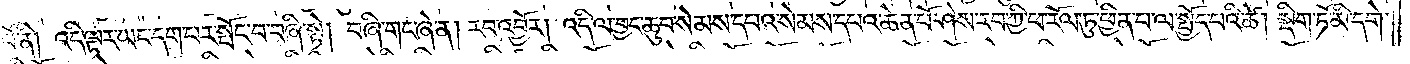པོ་ནི། འདི་ལྟར་ཡང་དག་པར་སྤོང་བ་བཞི་སྟེ། བཞི་གང་ཞེ་ན། རབ་འབྱོར། འདི་ལ་བྱང་ཆུབ་སེམས་དཔའ་སེམས་དཔའ་ཆེན་པོ་ཤེས་རབ་ཀྱི་ཕ་རོལ་ཏུ་ཕྱིན་པ་ལ་སྤྱོད་པའི་ཚེ། སྡིག་ཏོ་མི་དགེ་
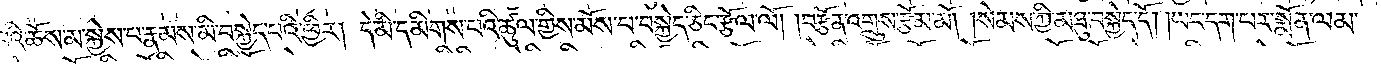བའི་ཆོས་མ་སྐྱེས་པ་རྣམས་མི་བསྐྱེད་པའི་ཕྱིར། དེ་མི་དམིགས་པའི་ཚུལ་གྱིས་མོས་པ་བསྐྱེད་ཅིང་རྩོལ་ལོ། །བརྩོན་འགྲུས་རྩོམ་མོ། །སེམས་ཀྱི་མཐུ་བསྐྱེད་དོ། །ཡང་དག་པར་སྨོན་ལམ་
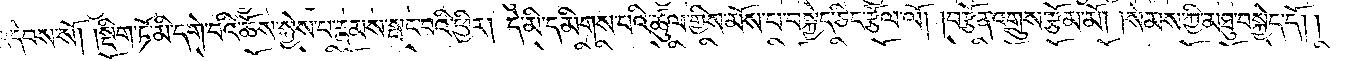འདེབས་སོ། །སྡིག་ཏོ་མི་དགེ་བའི་ཆོས་སྐྱེས་པ་རྣམས་སྤང་བའི་ཕྱིར། དེ་མི་དམིགས་པའི་ཚུལ་གྱིས་མོས་པ་བསྐྱེད་ཅིང་རྩོལ་ལོ། །བརྩོན་འགྲུས་རྩོམ་མོ། །སེམས་ཀྱི་མཐུ་བསྐྱེད་དོ། །
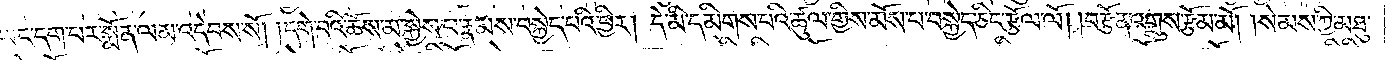ཡང་དག་པར་སྨོན་ལམ་འདེབས་སོ། །དགེ་བའི་ཆོས་མ་སྐྱེས་པ་རྣམས་བསྐྱེད་པའི་ཕྱིར། དེ་མི་དམིགས་པའི་ཚུལ་གྱིས་མོས་པ་བསྐྱེད་ཅིང་རྩོལ་ལོ། །བརྩོན་འགྲུས་རྩོམ་མོ། །སེམས་ཀྱི་མཐུ་
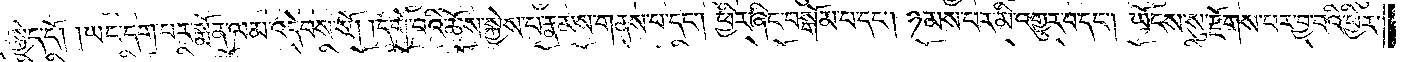བསྐྱེད་དོ། །ཡང་དག་པར་སྨོན་ལམ་འདེབས་སོ། །དགེ་བའི་ཆོས་སྐྱེས་པ་རྣམས་གནས་པ་དང༌། ཕྱིར་ཞིང་བསྒོམ་པ་དང༌། ཉམས་པར་མི་འགྱུར་བ་དང༌། ཡོངས་སུ་རྫོགས་པར་བྱ་བའི་ཕྱིར།
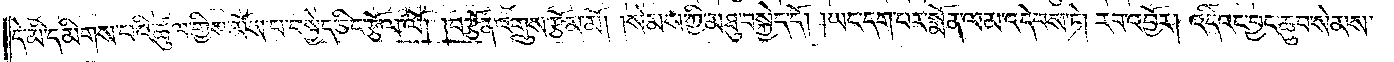དེ་མི་དམིགས་པའི་ཚུལ་གྱིས་མོས་པ་བསྐྱེད་ཅིང་རྩོལ་ལོ། །བརྩོན་འགྲུས་རྩོམ་མོ། །སེམས་ཀྱི་མཐུ་བསྐྱེད་དོ། །ཡང་དག་པར་སྨོན་ལམ་འདེབས་ཏེ། རབ་འབྱོར། འདིའང་བྱང་ཆུབ་སེམས་
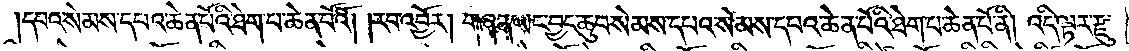དཔའ་སེམས་དཔའ་ཆེན་པོའི་ཐེག་པ་ཆེན་པོའོ། །རབ་འབྱོར། གཞན་ཡང་བྱང་ཆུབ་སེམས་དཔའ་སེམས་དཔའ་ཆེན་པོའི་ཐེག་པ་ཆེན་པོ་ནི། འདི་ལྟར་རྫུ་
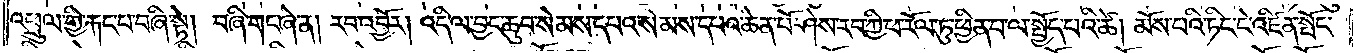འཕྲུལ་གྱི་རྐང་པ་བཞི་སྟེ། བཞི་གང་ཞེ་ན། རབ་འབྱོར། འདི་ལ་བྱང་ཆུབ་སེམས་དཔའ་སེམས་དཔའ་ཆེན་པོ་ཤེས་རབ་ཀྱི་ཕ་རོལ་ཏུ་ཕྱིན་པ་ལ་སྤྱོད་པའི་ཚེ། མོས་པའི་ཏིང་ངེ་འཛིན་སྤོང་
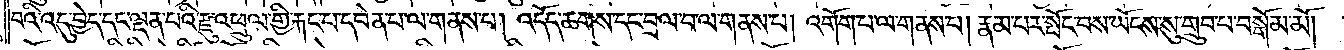བའི་འདུ་བྱེད་དང་ལྡན་པའི་རྫུ་འཕྲུལ་གྱི་རྐང་པ་དབེན་པ་ལ་གནས་པ། འདོད་ཆགས་དང་བྲལ་བ་ལ་གནས་པ། འགོག་པ་ལ་གནས་པ། རྣམ་པར་སྤོང་བས་ཡོངས་སུ་གྲུབ་པ་བསྒོམ་མོ། །
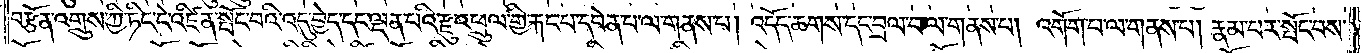བརྩོན་འགྲུས་ཀྱི་ཏིང་ངེ་འཛིན་སྤོང་བའི་འདུ་བྱེད་དང་ལྡན་པའི་རྫུ་འཕྲུལ་གྱི་རྐང་པ་དབེན་པ་ལ་གནས་པ། འདོད་ཆགས་དང་བྲལ་བ་ལ་གནས་པ། འགོག་པ་ལ་གནས་པ། རྣམ་པར་སྤོང་བས་
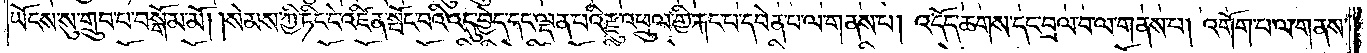ཡོངས་སུ་གྲུབ་པ་བསྒོམ་མོ། །སེམས་ཀྱི་ཏིང་ངེ་འཛིན་སྤོང་བའི་འདུ་བྱེད་དང་ལྡན་པའི་རྫུ་འཕྲུལ་གྱི་རྐང་པ་དབེན་པ་ལ་གནས་པ། འདོད་ཆགས་དང་བྲལ་བ་ལ་གནས་པ། འགོག་པ་ལ་གནས་
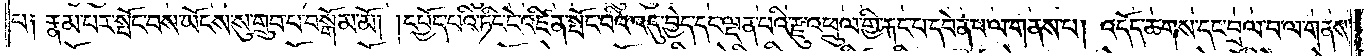པ༑ རྣམ་པར་སྤོང་བས་ཡོངས་སུ་གྲུབ་པ་བསྒོམ་མོ། །དཔྱོད་པའི་ཏིང་ངེ་འཛིན་སྤོང་བའི་འདུ་བྱེད་དང་ལྡན་པའི་རྫུ་འཕྲུལ་གྱི་རྐང་པ་དབེན་པ་ལ་གནས་པ། འདོད་ཆགས་དང་བྲལ་བ་ལ་གནས་
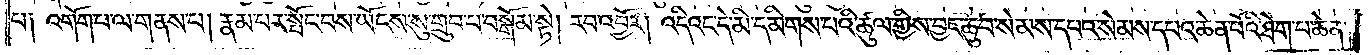པ༑ འགོག་པ་ལ་གནས་པ། རྣམ་པར་སྤོང་བས་ཡོངས་སུ་གྲུབ་པ་བསྒོམ་སྟེ། རབ་འབྱོར། འདིའང་དེ་མི་དམིགས་པའི་ཚུལ་གྱིས་བྱང་ཆུབ་སེམས་དཔའ་སེམས་དཔའ་ཆེན་པོའི་ཐེག་པ་ཆེན་
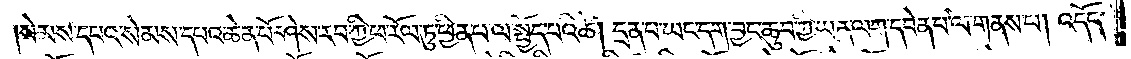།སེམས་དཔའ་སེམས་དཔའ་ཆེན་པོ་ཤེས་རབ་ཀྱི་ཕ་རོལ་ཏུ་ཕྱིན་པ་ལ་སྤྱོད་པའི་ཚེ། དྲན་པ་ཡང་དག་བྱང་ཆུབ་ཀྱི་ཡན་ལག་དབེན་པ་ལ་གནས་པ། འདོད་
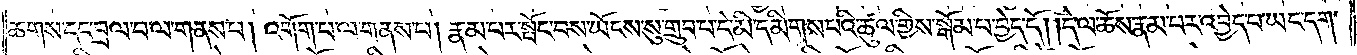ཆགས་དང་བྲལ་བ་ལ་གནས་པ། འགོག་པ་ལ་གནས་པ། རྣམ་པར་སྤོང་བས་ཡོངས་སུ་གྲུབ་པ་དེ་མི་དམིགས་པའི་ཚུལ་གྱིས་སྒོམ་པ་བྱེད་དོ། །དེ་ལ་ཆོས་རྣམ་པར་འབྱེད་པ་ཡང་དག་
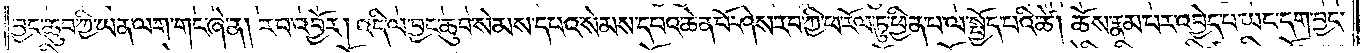བྱང་ཆུབ་ཀྱི་ཡན་ལག་གང་ཞེ་ན། རབ་འབྱོར། འདི་ལ་བྱང་ཆུབ་སེམས་དཔའ་སེམས་དཔའ་ཆེན་པོ་ཤེས་རབ་ཀྱི་ཕ་རོལ་ཏུ་ཕྱིན་པ་ལ་སྤྱོད་པའི་ཚེ། ཆོས་རྣམ་པར་འབྱེད་པ་ཡང་དག་བྱང་
